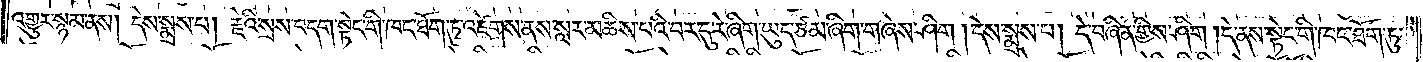འགྱུར་སྙམ་ནས། དེས་སྨྲས་པ། རྗེའི་སྲས་བདག་སྟེང་གི་ཁང་ཐོག་ཏུ་འཛེགས་ནས་སླར་མཆིས་པའི་བར་དུ་རེ་ཞིག་ཡུད་ཙམ་ཞིག་གཞེས་ཤིག །དེས་སྨྲས་པ། དེ་བཞིན་གྱིས་ཤིག །དེ་ནས་སྟེང་གི་ཁང་ཐོག་ཏུ་
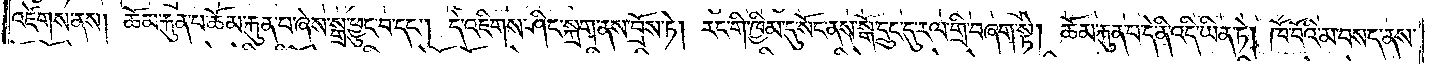འཛེགས་ནས། ཆོམ་རྐུན་པ་ཆོམ་རྐུན་པ་ཞེས་སྒྲ་ཕྱུང་བ་དང༌། དེ་འཇིགས་ཤིང་སྐྲག་ནས་བྲོས་ཏེ། རང་གི་ཁྱིམ་དུ་སོང་ནས་སྒོ་དྲུང་དུ་རལ་གྲི་བཞག་སྟེ། ཆོམ་རྐུན་པ་དེ་ནི་འདི་ཡིན་ཏེ། ཁོ་བོའི་མ་བསད་ནས་
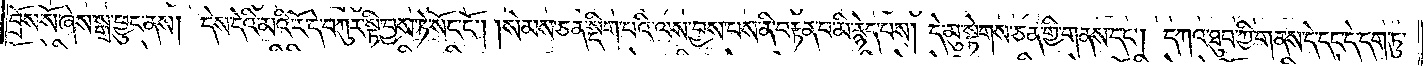བྲོས་སོ་ཞེས་སྒྲ་ཕྱུང་ནས། དེས་དེའི་མའི་རོ་དེ་བཀུར་སྟི་བྱས་ཏེ་སོང་ངོ༌། །སེམས་ཅན་སྡིག་པའི་ལས་བྱས་པས་ནི་བརྟན་པ་མི་རྙེད་པས། དེ་མུ་སྟེགས་ཅན་གྱི་གནས་དང༌། དཀའ་ཐུབ་ཀྱི་གནས་དེ་དང་དེ་དག་ཏུ་
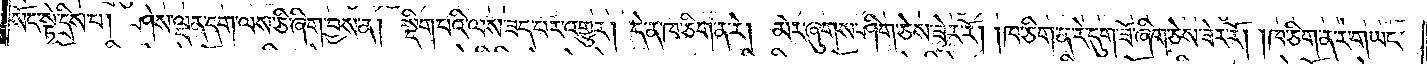སོང་སྟེ་དྲིས་པ། ཤེས་ལྡན་དག་ལས་ཅི་ཞིག་བྱས་ན། སྡིག་པའི་ལས་ཟད་པར་འགྱུར། དེ་ན་ཁ་ཅིག་ན་རེ། མེར་ཞུགས་ཤིག་ཅེས་ཟེར་རོ། །ཁ་ཅིག་ན་རེ་དུག་ཟོ་ཞིག་ཅེས་ཟེར་རོ། །ཁ་ཅིག་ན་རེ་གཡང་
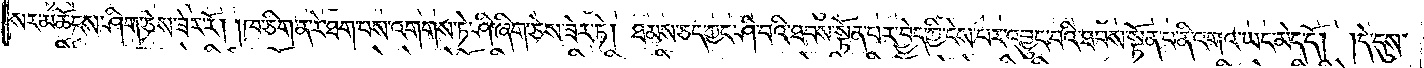སར་མཆོངས་ཤིག་ཅེས་ཟེར་རོ། །ཁ་ཅིག་ན་རེ་ཐག་པས་འགགས་ཏེ་ཤི་ཞིག་ཅེས་ཟེར་ཏེ། ཐམས་ཅད་ཀྱང་ཤི་བའི་ཐབས་སྟོན་པར་བྱེད་ཀྱི་ངེས་པར་འབྱུང་བའི་ཐབས་སྟོན་པ་ནི་འགའ་ཡང་མེད་དོ། །དེ་དུས་
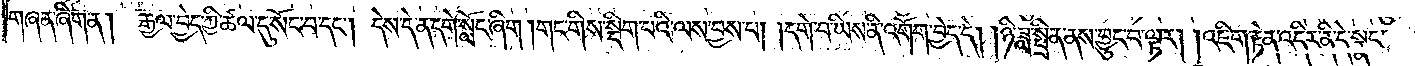གཞན་ཞིག་ན། རྒྱལ་བྱེད་ཀྱི་ཚལ་དུ་སོང་བ་དང༌། དེས་དེ་ན་དགེ་སློང་ཞིག །གང་གིས་སྡིག་པའི་ལས་བྱས་པ། །དགེ་བ་ཡིས་ནི་འགོག་བྱེད་དེ། །ཉི་ཟླ་སྤྲིན་ནས་བྱུང་བ་ལྟར། །འཇིག་རྟེན་འདིར་ནི་དེ་སྣང་
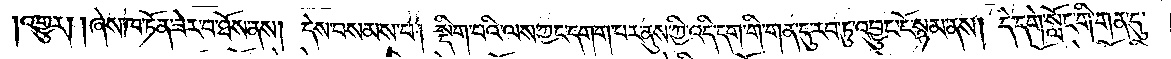འགྱུར། །ཞེས་ཁ་ཏོན་ཟེར་བ་ཐོས་ནས། དེས་བསམས་པ། སྡིག་པའི་ལས་ཀྱང་དགག་པར་ནུས་ཀྱི་འདི་དག་གི་གན་དུ་རབ་ཏུ་འབྱུང་ངོ་སྙམ་ནས། དེ་དགེ་སློང་གི་གན་དུ་
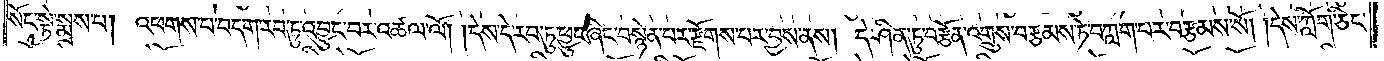སོང་སྟེ་སྨྲས་པ། འཕགས་པ་བདག་རབ་ཏུ་འབྱུང་བར་འཚལ་ལོ། །དེས་དེ་རབ་ཏུ་ཕྱུང་ཞིང་བསྙེན་པར་རྫོགས་པར་བྱས་ནས། དེ་ཤིན་ཏུ་བརྩོན་འགྲུས་བརྩམས་ཏེ་བཀླགས་པར་བརྩམས་སོ། །དེས་ཀློག་ཅིང་
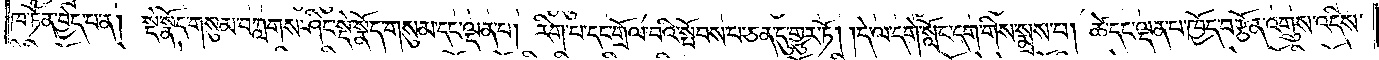ཁ་ཏོན་བྱེད་པ་ན། སྡེ་སྣོད་གསུམ་བཀླགས་ཤིང་སྡེ་སྣོད་གསུམ་དང་ལྡན་པ། རིག་པ་དང་གྲོལ་བའི་སྤོབས་པ་ཅན་དུ་གྱུར་ཏོ། །དེ་ལ་དགེ་སློང་དག་གིས་སྨྲས་པ། ཚེ་དང་ལྡན་པ་ཁྱོད་བརྩོན་འགྲུས་འདིས་
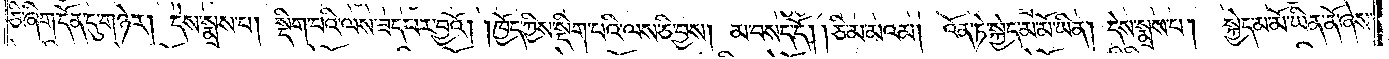ཅི་ཞིག་དོན་དུ་གཉེར། དེས་སྨྲས་པ། སྡིག་པའི་ལས་ཟད་པར་བྱའོ། །ཁྱོད་ཀྱིས་སྡིག་པའི་ལས་ཅི་བྱས། མ་བསད་དོ། །ཅི་མ་མའམ། འོན་ཏེ་སྐྱེད་མ་མོ་ཡིན། དེས་སྨྲས་པ། སྐྱེད་མ་མོ་ཡིན་ནོ་ཞེས་
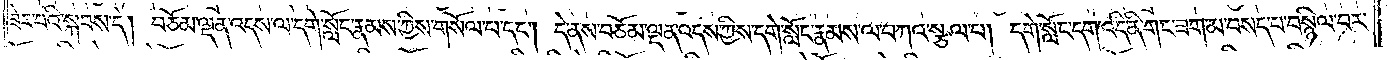ཟེར་བའི་སྐབས་དེ། བཅོམ་ལྡན་འདས་ལ་དགེ་སློང་རྣམས་ཀྱིས་གསོལ་པ་དང༌། དེ་ནས་བཅོམ་ལྡན་འདས་ཀྱིས་དགེ་སློང་རྣམས་ལ་བཀའ་སྩལ་པ། དགེ་སློང་དག་འདི་ནི་གང་ཟག་མ་བཟད་པ་བསྙིལ་བར་
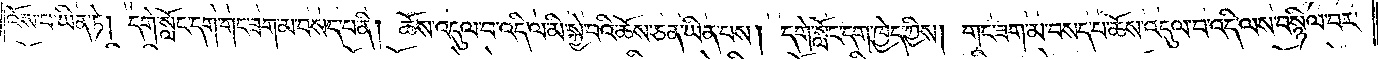འོས་པ་ཡིན་ཏེ། དགེ་སློང་དག་གང་ཟག་མ་བསད་པ་ནི། ཆོས་འདུལ་བ་འདི་ལ་མི་སྐྱེ་བའི་ཆོས་ཅན་ཡིན་པས། དགེ་སློང་དག་ཁྱེད་ཀྱིས། གང་ཟག་མ་བསད་པ་ཆོས་འདུལ་བ་འདི་ལས་བསྙིལ་བར་
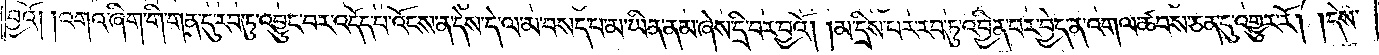བྱའོ། །འགའ་ཞིག་གི་གན་དུ་རབ་ཏུ་འབྱུང་བར་འདོད་པ་འོངས་ན་དེས་དེ་ལ་མ་བསད་པ་མ་ཡིན་ནམ་ཞེས་དྲི་བར་བྱའོ། །མ་དྲིས་པར་རབ་ཏུ་འབྱིན་པར་བྱེད་ན་འགལ་ཚབས་ཅན་དུ་འགྱུར་རོ། །དེས་
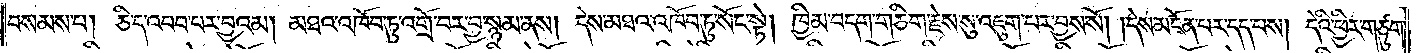བསམས་པ། ཅིད་འབབ་པར་བྱའམ། མཐའ་འཁོབ་ཏུ་འགྲོ་བར་བྱ་སྙམ་ནས། དེས་མཐའ་འཁོབ་ཏུ་སོང་སྟེ། ཁྱིམ་བདག་གཅིག་རྗེས་སུ་འཇུག་པར་བྱས་སོ། །དེས་མངོན་པར་དད་པས། དེའི་ཕྱིར་གཙུག་
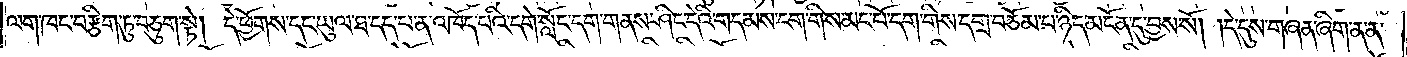ལག་ཁང་བརྩིག་ཏུ་བཅུག་སྟེ། དེ་ཕྱོགས་དང་ཡུལ་ཐ་དད་པ་ན་འཁོད་པའི་དགེ་སློང་དག་གནས་ཤིང་དེའི་གདམས་ངག་གིས་མང་པོ་དག་གིས་དགྲ་བཅོམ་པ་ཉིད་མངོན་དུ་བྱས་སོ། །དེ་དུས་གཞན་ཞིག་ན་ན་
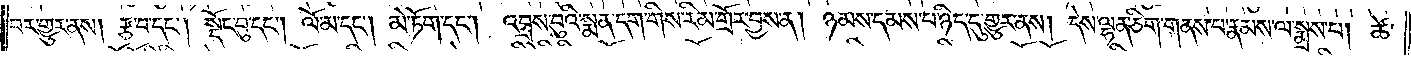བར་གྱུར་ནས། རྩ་བ་དང༌། སྡོང་བུ་དང༌། ལོ་མ་དང༌། མེ་ཏོག་དང༌། འབྲས་བུའི་སྨན་དག་གིས་རིམ་གྲོར་བྱས་ན། ཉམས་དམས་པ་ཉིད་དུ་གྱུར་ནས། དེས་ལྷན་ཅིག་གནས་པ་རྣམས་ལ་སྨྲས་པ། ཚེ་
